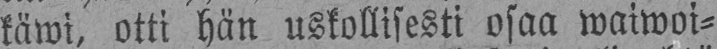käwi, otti hän uskollisesti osaa waiwoi-
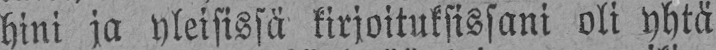hini ja yleisissä kirjoituksissani oli yhtä
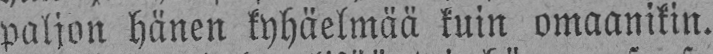paljon hänen kyhäelmää kuin omaanikin.
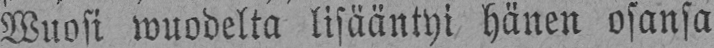Wuosi wuodelta lisääntyi hänen osansa
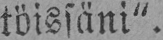töissäni".
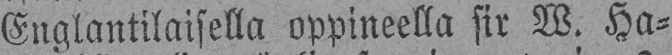Englantilaisella oppineella sir W. Ha-
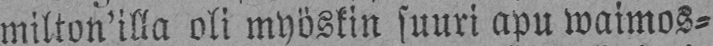milton'illa oli myöskin suuri apu waimos-
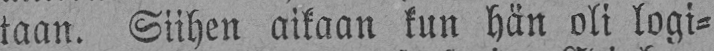taan. Siihen aikaan kun hän oli logi-
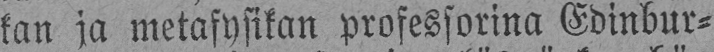kan ja metafysikan professorina Edinbur-
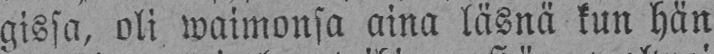gissa, oli waimonsa aina läsnä kun hän
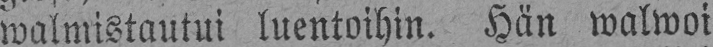walmistautui luentoihin. Hän walwoi
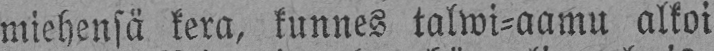miehensä kera, kunnes talwi-aamu alkoi
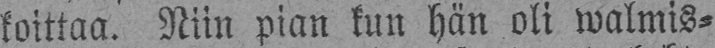koittaa. Niin pian kun hän oli walmis-
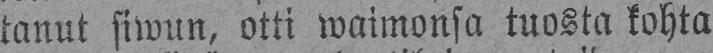tanut siwun, otti waimonsa tuosta kohta
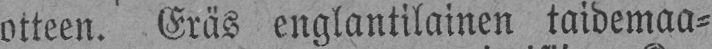otteen. Eräs englantilainen taidemaa-
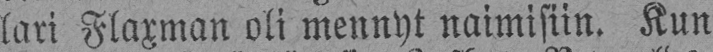lari Flaxman oli mennyt naimisiin. Kun
